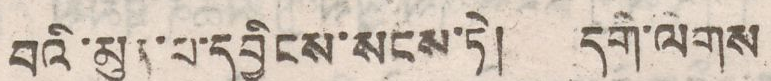བའི་མུན་པ་དབྱིངས་སངས་ཏེ། དགེ་ལེགས
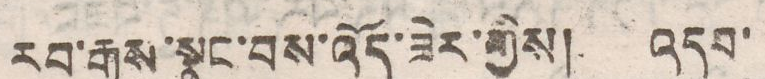རབ་རྒྱས་སྣང་བས་འོད་ཟེར་གྱིས། འདབ་
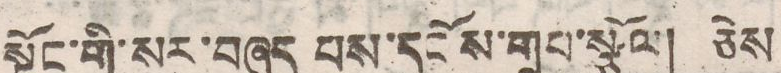སྟོང་གི་སར་བཞད པས་དངོས་གྲུབ་སྩོལ། ཅེས
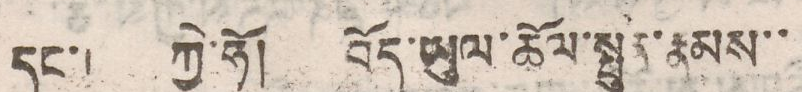དང་། ཀྱེ་ཧོ། བོད་ཡུལ་ཆོལ་སྤུན་རྣམས་་
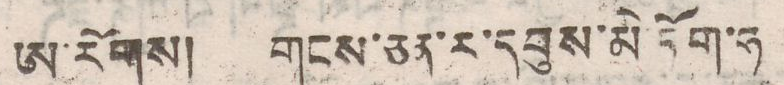ཨ་རོགས། གངས་ཅན་ར་དབུས་མེ་ཏོག་ཧ
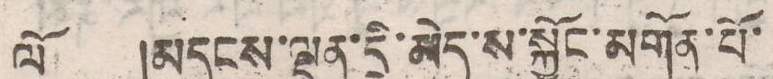ལོ །མདངས་ལྡན་དྲི་མེད་ས་སྐྱོང་མགོན་པོ་
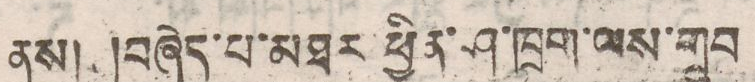ནས། །བཞེད་པ་མཐར ཕྱིན་ཤ་ཁྲག་ལས་གྲུབ
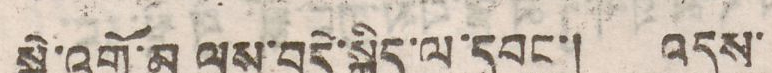སྐྱེ་འགྲོ་མ ལུས་བདེ་སྐྱིད་ལ་དབང་། འདུས་
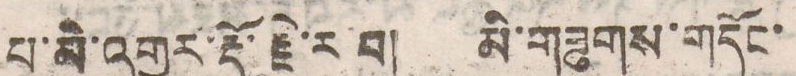པ་མི་འགྱུར་རྡོ་རྗེ་ར བ། མི་གཟུགས་གདོང་
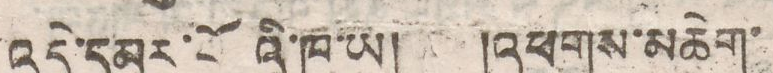འདྲེ་དམར་པོ འི་ཁ་ཡ། །འཕགས་མཆེག་
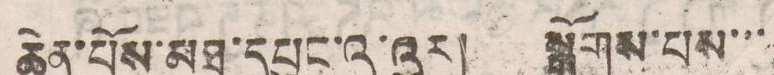ཆེན་པོས་མཐུ་དཔུང་འ་འུར། སྒྲོགས་པས་་་
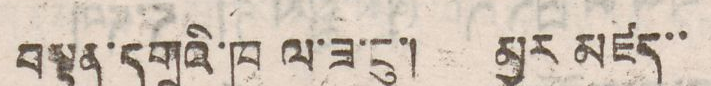བསྟན་དགྲའི་ཁ ལ་ཟ་ངུ་། མྱུར མཛད་་
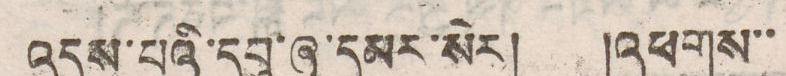འདུས་པའི་དབུ་ཞྭ་དམར་སེར། འཕགས་་
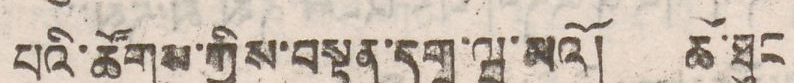པའི་ཚོགས་ཀྱིས་བསྟན་དགྲ་ཝ་མའོ། ཆོ་ཐུང
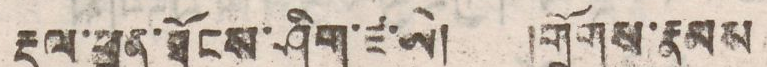རྡུལ་ཕྲན་ཐོངས་ཤིག་ཛ་ཨེ། །གྲོགས་རྣམས
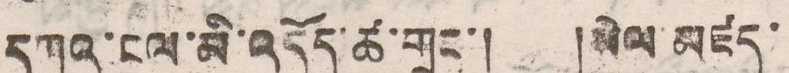དཀའ་ངལ་མི་འདོད་ཚ་གྲང་། །སེལ མཛད་
